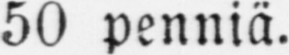50 penniä.
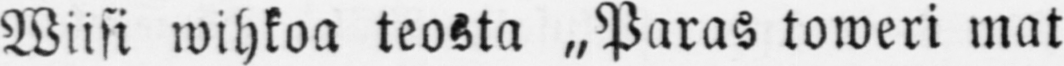Wiisi wihkoa teosta „Paras toweri mat-
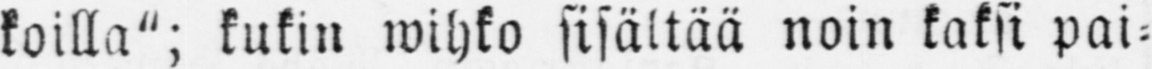koilla"; kukin wihko sisältää noin kaksi pai-
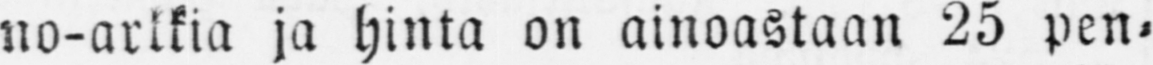no-arkkia ja hinta on ainoastaan 25 pen-
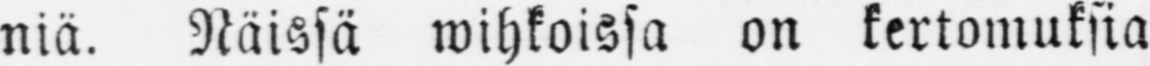niä. Näissä wihkoissa on kertomuksia
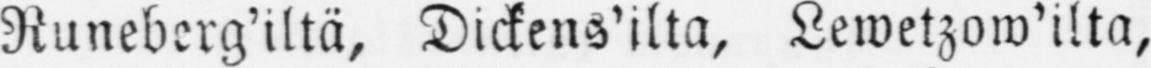Runeberg'iltä, Dickens'ilta, Lewetzow'ilta,
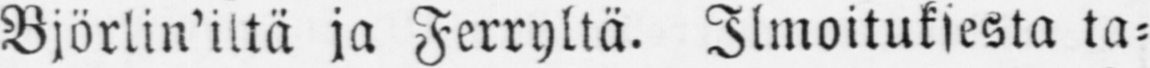Björlin'iltä ja Ferryltä. Ilmoituksesta ta-
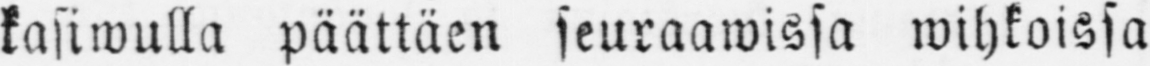kasiwulla päättäen seuraawissa wihkoissa
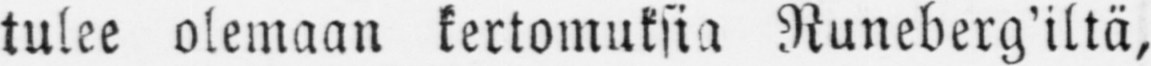tulee olemaan kertomuksia Runeberg'iltä,
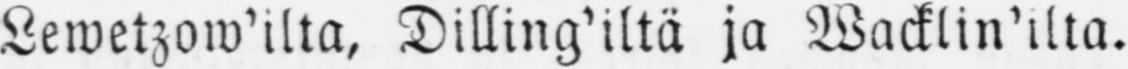Lewetzow'ilta, Dilling'iltä ja Wacklin'ilta.
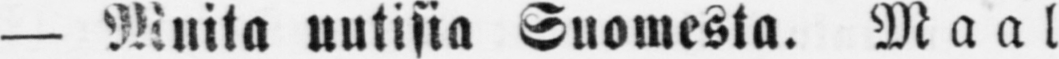— Muita uutisia Suomesta. Maal-
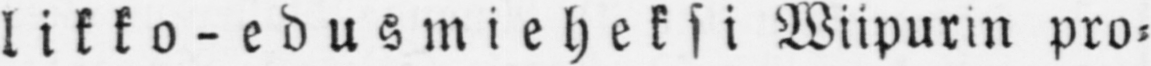likko - edusmieheksi Wiipurin pro-
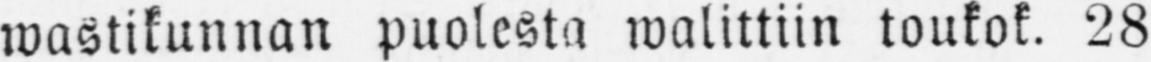wastikunnan puolesta walittiin toukok. 28
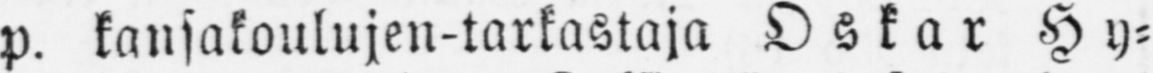p. kansakoulujen-tarkastaja Oskar Hy-
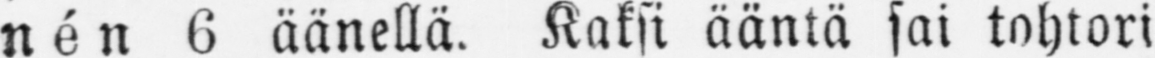nén 6 äänellä. Kaksi ääntä sai tohtori
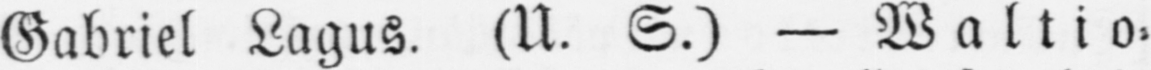Gabriel Lagus. (U. S.) — Waltio-
